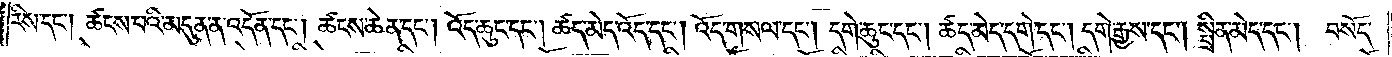རིས་དང༌། ཚངས་པའི་མདུན་ན་འདོན་དང༌། ཚངས་ཆེན་དང༌། འོད་ཆུང་དང༌། ཚད་མེད་འོད་དང༌། འོད་གསལ་དང༌། དགེ་ཆུང་དང༌། ཚད་མེད་དགེ་དང༌། དགེ་རྒྱས་དང༌། སྤྲིན་མེད་དང༌། བསོད་
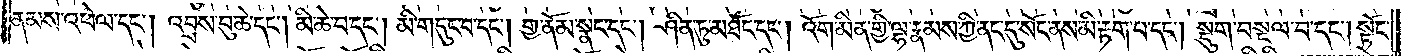ནམས་འཕེལ་དང༌། འབྲས་བུ་ཆེ་དང༌། མི་ཆེ་བ་དང༌། མི་གདུང་བ་དང༌། གྱ་ནོམ་སྣང་དང༌། ཤིན་ཏུ་མཐོང་དང༌། འོག་མིན་གྱི་ལྷ་རྣམས་ཀྱི་ནང་དུ་སོང་ནས་མི་རྟག་པ་དང༌། སྡུག་བསྔལ་བ་དང༌། སྟོང་
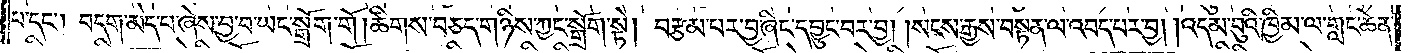པ་དང༌། བདག་མེད་པ་ཞེས་བྱ་བ་ཡང་སྒྲོག་གོ །ཚིགས་བཅད་གཉིས་ཀྱང་སྒྲོག་སྟེ། བརྩམ་པར་བྱ་ཞིང་དབྱུང་བར་བྱ། །སངས་རྒྱས་བསྟན་ལ་འབད་པར་བྱ། །འདམ་བུའི་ཁྱིམ་ལ་གླང་ཆེན་
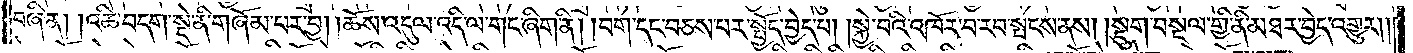བཞིན། །འཆི་བདག་སྡེ་ནི་གཞོམ་པར་བྱ། །ཆོས་འདུལ་འདི་ལ་གང་ཞིག་ནི། །བག་དང་བཅས་པར་སྤྱོད་བྱེད་པ། །སྐྱེ་བའི་འཁོར་བ་རབ་སྤངས་ནས། །སྡུག་བསྔལ་གྱི་ནི་མཐར་བྱེད་འགྱུར༎
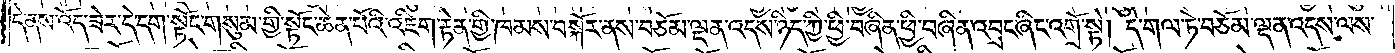དེ་ནས་འོད་ཟེར་དེ་དག་སྟོང་གསུམ་གྱི་སྟོང་ཆེན་པོའི་འཇིག་རྟེན་གྱི་ཁམས་བསྐོར་ནས་བཅོམ་ལྡན་འདས་ཉིད་ཀྱི་ཕྱི་བཞིན་ཕྱི་བཞིན་འབྲང་ཞིང་འགྲོ་སྟེ། དེ་གལ་ཏེ་བཅོམ་ལྡན་འདས་ལས་
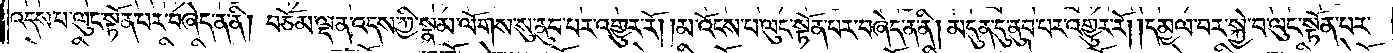འདས་པ་ལུང་སྟོན་པར་བཞེད་ན་ནི། བཅོམ་ལྡན་འདས་ཀྱི་སྣམ་ལོགས་སུ་ནུབ་པར་འགྱུར་རོ། །མ་འོངས་པ་ལུང་སྟོན་པར་བཞེད་ན་ནི། མདུན་དུ་ནུབ་པར་འགྱུར་རོ། །དམྱལ་བར་སྐྱེ་བ་ལུང་སྟོན་པར་
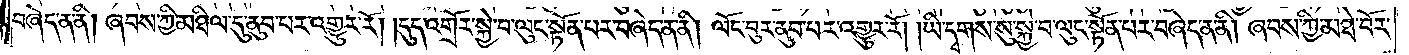བཞེད་ན་ནི། ཞབས་ཀྱི་མཐིལ་དུ་ནུབ་པར་འགྱུར་རོ། །དུད་འགྲོར་སྐྱེ་བ་ལུང་སྟོན་པར་བཞེད་ན་ནི། ལོང་བུར་ནུབ་པར་འགྱུར་རོ། །ཡི་དྭགས་སུ་སྐྱེ་བ་ལུང་སྟོན་པར་བཞེད་ན་ནི། ཞབས་ཀྱི་མཐེ་བོར་
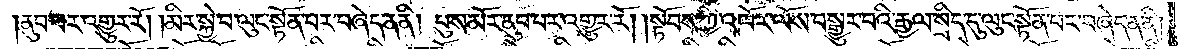ནུབ་པར་འགྱུར་རོ། །མིར་སྐྱེ་བ་ལུང་སྟོན་པར་བཞེད་ན་ནི། པུས་མོར་ནུབ་པར་འགྱུར་རོ། །སྟོབས་ཀྱི་འཁོར་ལོས་བསྒྱུར་བའི་རྒྱལ་སྲིད་དུ་ལུང་སྟོན་པར་བཞེད་ན་ནི།
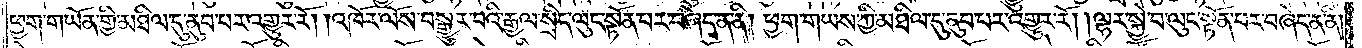ཕྱག་གཡོན་གྱི་མཐིལ་དུ་ནུབ་པར་འགྱུར་རོ། །འཁོར་ལོས་བསྒྱུར་བའི་རྒྱལ་སྲིད་ལུང་སྟོན་པར་བཞེད་ན་ནི། ཕྱག་གཡས་ཀྱི་མཐིལ་དུ་ནུབ་པར་འགྱུར་རོ། །ལྷར་སྐྱེ་བ་ལུང་སྟོན་པར་བཞེད་ན་ནི།
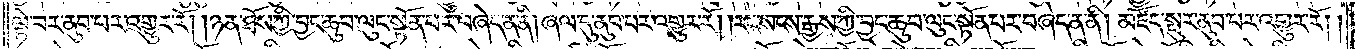ལྟེ་བར་ནུབ་པར་འགྱུར་རོ། །ཉན་ཐོས་ཀྱི་བྱང་ཆུབ་ལུང་སྟོན་པར་བཞེད་ན་ནི། །ཞལ་དུ་ནུབ་པར་འགྱུར་རོ། །རང་སངས་རྒྱས་ཀྱི་བྱང་ཆུབ་ལུང་སྟོན་པར་བཞེད་ན་ནི། མཛོད་སྤུར་ནུབ་པར་འགྱུར་རོ། །
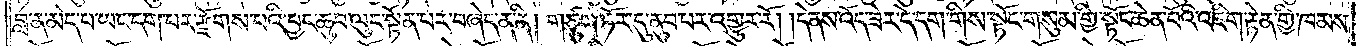བླ་ན་མེད་པ་ཡང་དག་པར་རྫོགས་པའི་བྱང་ཆུབ་ལུང་སྟོན་པར་བཞེད་ན་ནི། གཙུག་ཏོར་དུ་ནུབ་པར་འགྱུར་རོ། །དེ་ནས་འོད་ཟེར་དེ་དག་གིས་སྟོང་གསུམ་གྱི་སྟོང་ཆེན་པོའི་འཇིག་རྟེན་གྱི་ཁམས་
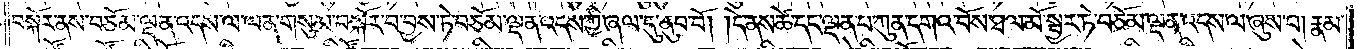བསྐོར་ནས་བཅོམ་ལྡན་འདས་ལ་ལན་གསུམ་བསྐོར་བ་བྱས་ཏེ་བཅོམ་ལྡན་འདས་ཀྱི་ཞལ་དུ་ནུབ་བོ། །དེ་ནས་ཚེ་དང་ལྡན་པ་ཀུན་དགའ་བོས་ཐལ་མོ་སྦྱར་ཏེ་བཅོམ་ལྡན་འདས་ལ་ཞུས་པ། རྣམ་
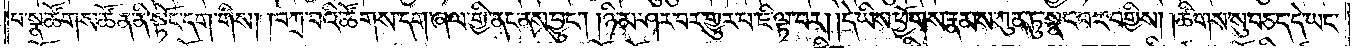པ་སྣ་ཚོགས་ཚོན་ནི་སྟོང་དག་གིས། །བཀྲ་བའི་ཚོགས་དག་ཞལ་གྱི་ནང་ནས་བྱུང༌། །ཉི་མ་ཤར་བར་གྱུར་པ་ཇི་ལྟ་བར། །དེ་ཡིས་ཕྱོགས་རྣམས་ཀུན་ཏུ་སྣང་བར་བགྱིས། །ཚིགས་སུ་བཅད་དེ་ཡང་
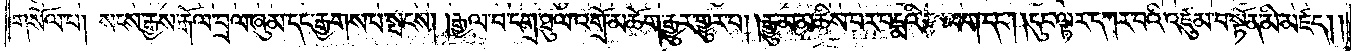གསོལ་པ། སངས་རྒྱས་རྒོལ་བྲལ་ཞུམ་དང་རྒྱགས་པ་སྤངས། །རྒྱལ་བ་དགྲ་ཐུལ་འགྲོ་མཆོག་རྒྱུར་གྱུར་པ། །རྒྱུ་མ་མཆིས་པར་པདྨའི་རྩ་ལག་དང༌། །དུང་ལྟར་དཀར་བའི་འཛུམ་བ་སྟོན་མི་མཛད༎
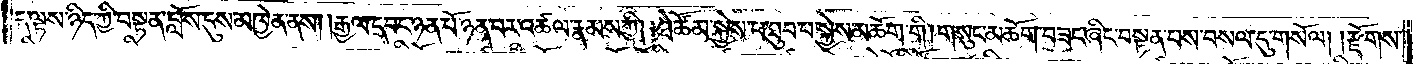ད་ལྟས་ཉིད་ཀྱི་བསྟན་བློས་དུས་མཁྱེན་ནས། །རྒྱལ་དབང་ཉན་པོ་ཉན་པར་འཚལ་རྣམས་ཀྱི། །ཐེ་ཚོམ་སྐྱེས་པ་ཐུབ་པ་སྐྱེས་མཆོག་གི །གསུང་མཆོག་བཟང་ཞིང་བསྟན་པས་བསལ་དུ་གསོལ། །རྫོགས་
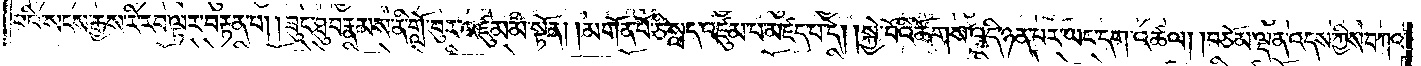པའི་སངས་རྒྱས་རི་རབ་ལྟར་བརྟན་པ། །ཟུང་ཐུབ་རྣམས་ནི་གློ་བུར་འཛུམ་མི་སྟོན། །མགོན་པོ་ཅི་སླད་འཛུམ་པ་མཛད་པ་དེ། །སྐྱེ་བོའི་ཚོགས་འདི་ཉན་པར་ཡང་དག་འཚལ། །བཅོམ་ལྡན་འདས་ཀྱིས་བཀའ་
